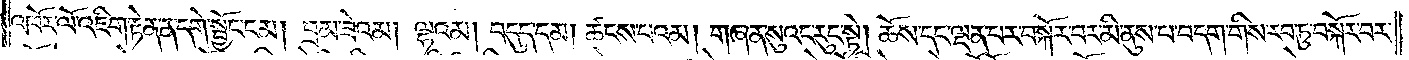འཁོར་ལོ་འཇིག་རྟེན་ན་དགེ་སྦྱོང་ངམ། བྲམ་ཟེ་འམ། ལྷ་འམ། བདུད་དམ། ཚངས་པ་འམ། གཞན་སུའང་རུང་སྟེ། ཆོས་དང་ལྡན་པར་བསྐོར་བར་མི་ནུས་པ་བདག་གིས་རབ་ཏུ་བསྐོར་བར་
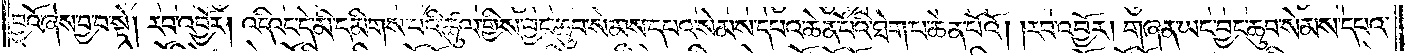བྱའོ་ཞེས་བྱ་བ་སྟེ། རབ་འབྱོར། འདིའང་དེ་མི་དམིགས་པའི་ཚུལ་གྱིས་བྱང་ཆུབ་སེམས་དཔའ་སེམས་དཔའ་ཆེན་པོའི་ཐེག་པ་ཆེན་པོའོ། །རབ་འབྱོར། གཞན་ཡང་བྱང་ཆུབ་སེམས་དཔའ་
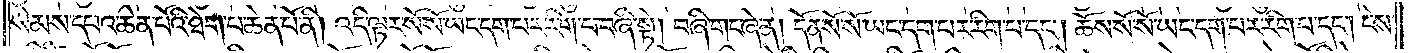སེམས་དཔའ་ཆེན་པོའི་ཐེག་པ་ཆེན་པོ་ནི། འདི་ལྟར་སོ་སོ་ཡང་དག་པར་རིག་པ་བཞི་སྟེ། བཞི་གང་ཞེ་ན། དོན་སོ་སོ་ཡང་དག་པར་རིག་པ་དང༌། ཆོས་སོ་སོ་ཡང་དག་པར་རིག་པ་དང༌། ངེས་
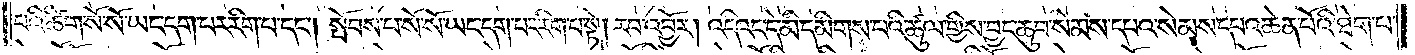པའི་ཚིག་སོ་སོ་ཡང་དག་པར་རིག་པ་དང༌། སྤོབས་པ་སོ་སོ་ཡང་དག་པར་རིག་པ་སྟེ། རབ་འབྱོར། འདིའང་དེ་མི་དམིགས་པའི་ཚུལ་གྱིས་བྱང་ཆུབ་སེམས་དཔའ་སེམས་དཔའ་ཆེན་པོའི་ཐེག་པ་
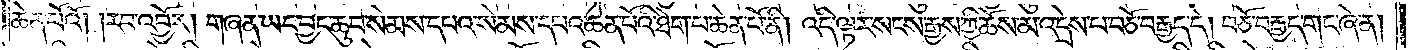ཆེན་པོའོ། །རབ་འབྱོར། གཞན་ཡང་བྱང་ཆུབ་སེམས་དཔའ་སེམས་དཔའ་ཆེན་པོའི་ཐེག་པ་ཆེན་པོ་ནི། འདི་ལྟར་སངས་རྒྱས་ཀྱི་ཆོས་མ་འདྲེས་པ་བཅོ་བརྒྱད་དེ། བཅོ་བརྒྱད་གང་ཞེ་ན།
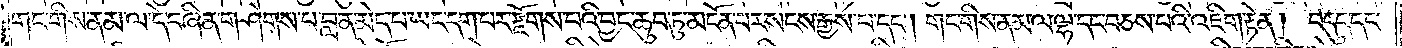གང་གིས་ནམ་ལ་དེ་བཞིན་གཤེགས་པ་བླ་ན་མེད་པ་ཡང་དག་པར་རྫོགས་པའི་བྱང་ཆུབ་ཏུ་མངོན་པར་སངས་རྒྱས་པ་དང༌། གང་གིས་ནམ་ལ་ལྷ་དང་བཅས་པའི་འཇིག་རྟེན། བདུད་དང་
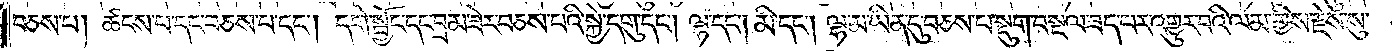བཅས་པ། ཚངས་པ་དང་བཅས་པ་དང༌། དགེ་སྦྱོང་དང་བྲམ་ཟེར་བཅས་པའི་སྐྱེ་དགུ་དང༌། ལྷ་དང༌། མི་དང་ལྷ་མ་ཡིན་དུ་བཅས་པ་སྡུག་བསྔལ་ཟད་པར་འགྱུར་བའི་ལམ་གྱིས་རྗེས་སུ་
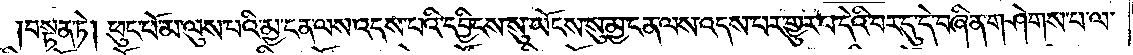བསྟན་ཏེ། ཕུང་པོ་མ་ལུས་པའི་མྱ་ངན་ལས་འདས་པའི་དབྱིངས་སུ་ཡོངས་སུ་མྱ་ངན་ལས་འདས་པར་གྱུར་པ་དེའི་བར་དུ་དེ་བཞིན་གཤེགས་པ་ལ་
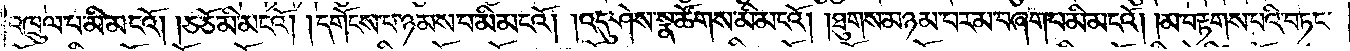འཁྲུལ་པ་མི་མངའོ། །ཅ་ཅོ་མི་མངའོ། །དགོངས་པ་ཉམས་པ་མི་མངའོ། །འདུ་ཤེས་སྣ་ཚོགས་མི་མངའོ། །ཐུགས་མཉམ་པར་མ་བཞག་པ་མི་མངའོ། །མ་བརྟགས་པའི་བཏང་
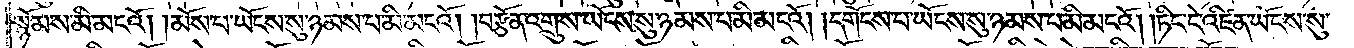སྙོམས་མི་མངའོ། །མོས་པ་ཡོངས་སུ་ཉམས་པ་མི་མངའོ། །བརྩོན་འགྲུས་ཡོངས་སུ་ཉམས་པ་མི་མངའོ། །དགོངས་པ་ཡོངས་སུ་ཉམས་པ་མི་མངའོ། །ཏིང་ངེ་འཛིན་ཡོངས་སུ་
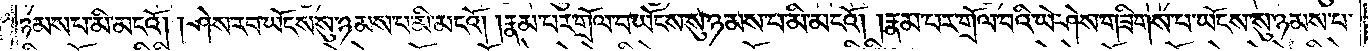ཉམས་པ་མི་མངའོ། །ཤེས་རབ་ཡོངས་སུ་ཉམས་པ་མི་མངའོ། །རྣམ་པར་གྲོལ་བ་ཡོངས་སུ་ཉམས་པ་མི་མངའོ། །རྣམ་པར་གྲོལ་བའི་ཡེ་ཤེས་གཟིགས་པ་ཡོངས་སུ་ཉམས་པ་
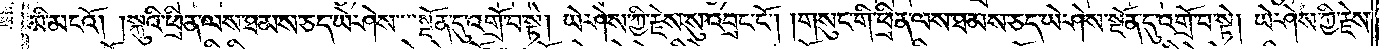མི་མངའོ། །སྐུའི་ཕྲིན་ལས་ཐམས་ཅད་ཡེ་ཤེས་མངོན་དུ་འགྲོ་བ་སྟེ། ཡེ་ཤེས་ཀྱི་རྗེས་སུ་འབྲང་ངོ༌། །གསུང་གི་ཕྲིན་ལས་ཐམས་ཅད་ཡེ་ཤེས་སྔོན་དུ་འགྲོ་བ་སྟེ། ཡེ་ཤེས་ཀྱི་རྗེས་
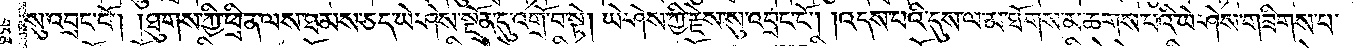སུ་འབྲང་ངོ༌། །ཐུགས་ཀྱི་ཕྲིན་ལས་ཐམས་ཅད་ཡེ་ཤེས་སྔོན་དུ་འགྲོ་བ་སྟེ། ཡེ་ཤེས་ཀྱི་རྗེས་སུ་འབྲང་ངོ༌། །འདས་པའི་དུས་ལ་མ་ཐོགས་མ་ཆགས་པའི་ཡེ་ཤེས་གཟིགས་པ་
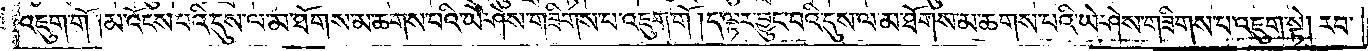འཇུག་གོ །མ་འོངས་པའི་དུས་ལ་མ་ཐོགས་མ་ཆགས་པའི་ཡེ་ཤེས་གཟིགས་པ་འཇུག་གོ །ད་ལྟར་བྱུང་བའི་དུས་ལ་མ་ཐོགས་མ་ཆགས་པའི་ཡེ་ཤེས་གཟིགས་པ་འཇུག་སྟེ། རབ་
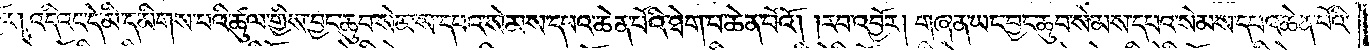འབྱོར། འདིའང་དེ་མི་དམིགས་པའི་ཚུལ་གྱིས་བྱང་ཆུབ་སེམས་དཔའ་སེམས་དཔའ་ཆེན་པོའི་ཐེག་པ་ཆེན་པོའོ། །རབ་འབྱོར། གཞན་ཡང་བྱང་ཆུབ་སེམས་དཔའ་སེམས་དཔའ་ཆེན་པོའི་
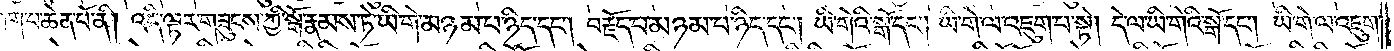ཐེག་པ་ཆེན་པོ་ནི། འདི་ལྟར་གཟུངས་ཀྱི་སྒོ་རྣམས་ཏེ་ཡི་གེ་མཉམ་པ་ཉིད་དང༌། བརྗོད་པ་མཉམ་པ་ཉིད་དང༌། ཡི་གེའི་སྒོ་དང༌། ཡི་གེ་ལ་འཇུག་པ་སྟེ། དེ་ལ་ཡི་གེའི་སྒོ་དང༌། ཡི་གེ་ལ་འཇུག་
